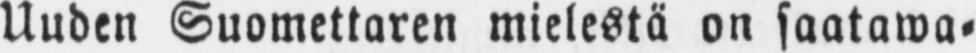Uuden Suomettaren mielestä on saatawa-
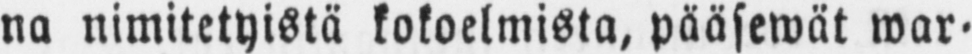na nimitetyistä kokoelmista, pääsewät war-
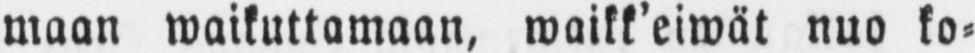maan waikuttamaan, waikk'eiwät nuo ko-
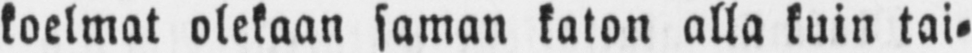koelmat olekaan saman katon alla kuin tai-
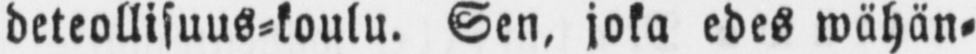deteollisuus-koulu. Sen, joka edes wähän-
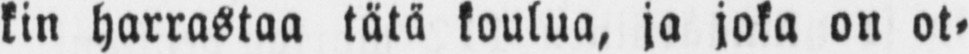kin harrastaa tätä koulua, ja joka on ot-
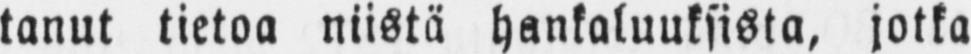tanut tietoa niistä hankaluuksista, jotka
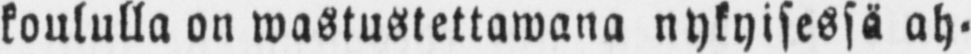koululla on wastustettawana nykyisessä ah-
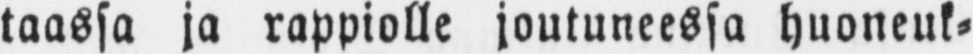taassa ja rappiolle joutuneessa huoneuk-
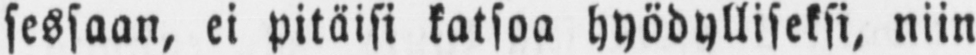sessaan, ei pitäisi katsoa hyödylliseksi, niin
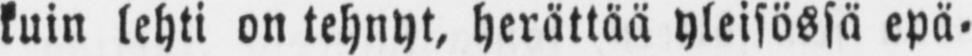kuin lehti on tehnyt, herättää yleisössä epä-
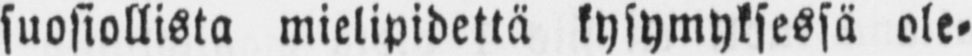suosiollista mielipidettä kysymyksessä ole-
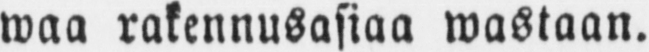waa rakennusasiaa wastaan.
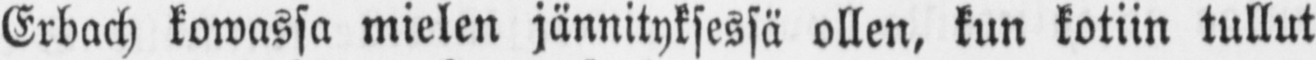Erbach kowassa mielen jännityksessä ollen, kun kotiin tullut
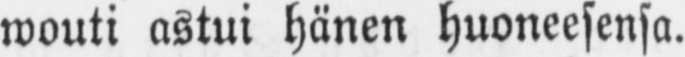wouti astui hänen huoneesensa.
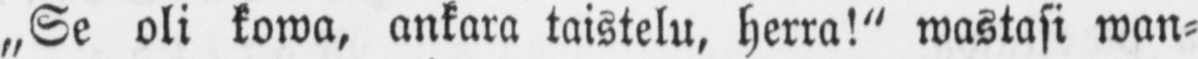„Se oli kowa, ankara taistelu, herra!" wastasi wan-
